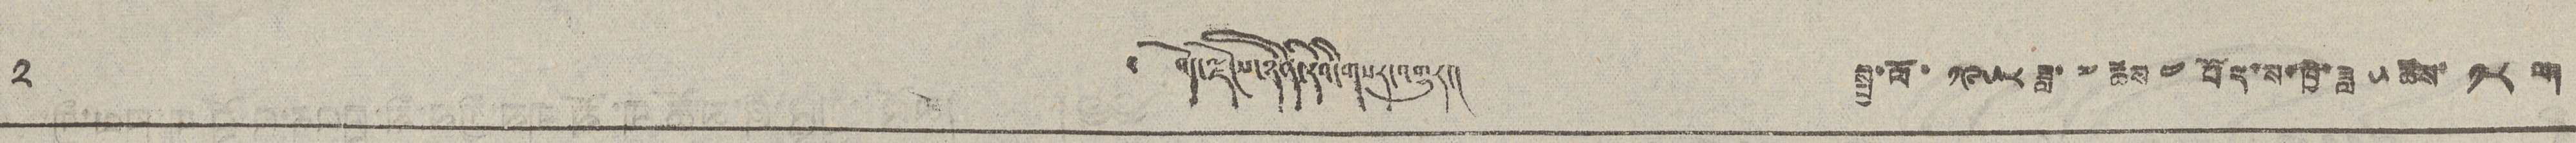༢ ༄ བོད་ལྗོངས་ཉིན་རེའི་གསར་འགྱུར། སྤྱི་ལོ་ ༡༩༥༨ ཟླ་ ༧ ཚེས ༤ བོད་ས་ཁྱི་ཟླ ༥ ཚེས་ ༡༨ ལ།
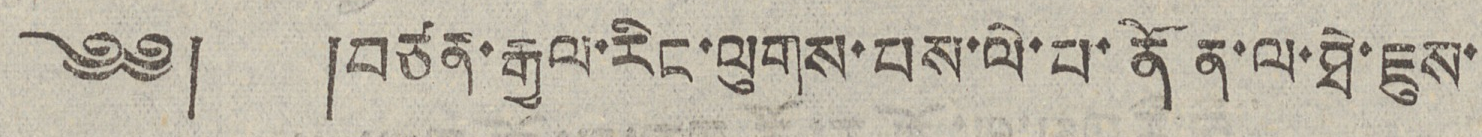༄༅། །བཙན་རྒྱལ་རིང་ལུགས་པས་ལེ་པ་ནོན་ལ་ཐེ་ཇུས་
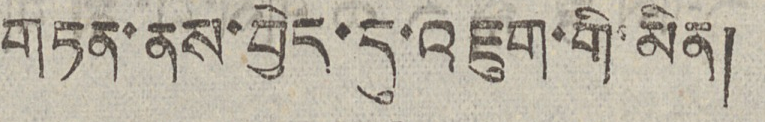གཏན་ནས་བྱེད་དུ་འཇུག་གི་མིན།
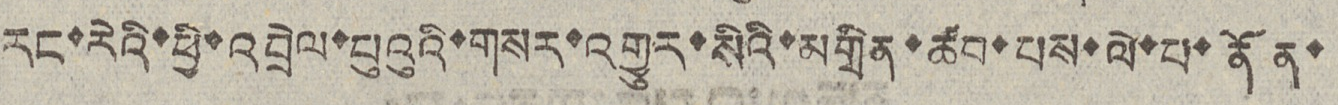རང་རེའི་ཕྱི་འབྲེལ་པུའུའི་གསར་འགྱུར་སིའི་མགྲིན་ཚབ་པས་ལེ་པ་ནོན་
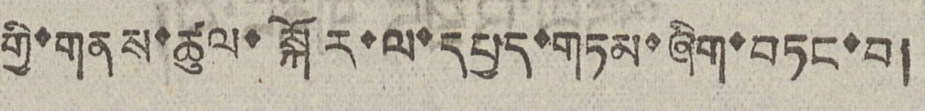གྱི་གནས་ཚུལ་སྐོར་ལ་དཔྱད་གཏམ་ཞིག་བཏང་བ།
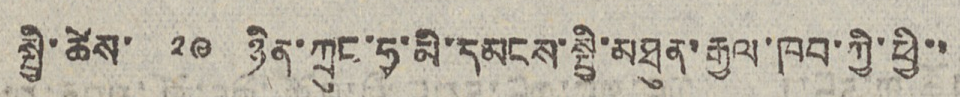སྤྱི་ཚེས་ ༢༩ ཉིན་ཀྲུང་ཧྭ་མི་དམངས་སྤྱི་མཐུན་རྒྱལ་ཁབ་ཀྱི་ཕྱི་་
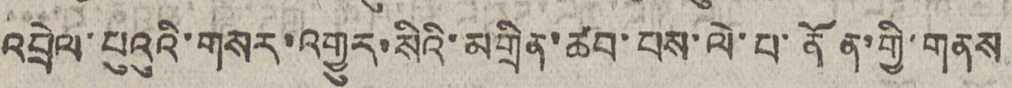འབྲེལ་པུའུའི་གསར་འགྱུར་སིའི་མགྲིན་ཚབ་པས་ལེ་པ་ནོན་གྱི་གནས
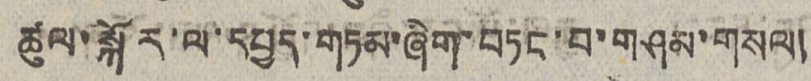ཚུལ་སྐོར་ལ་དཔྱད་གཏམ་ཞིག་བཏང་བ་གཤམ་གསལ།
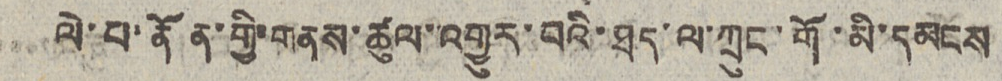ལེ་པ་ནོན་གྱི་གནས་ཚུལ་འགྱུར་བའི་ཐད་ལ་ཀྲུང་གོ་མི་དམངས
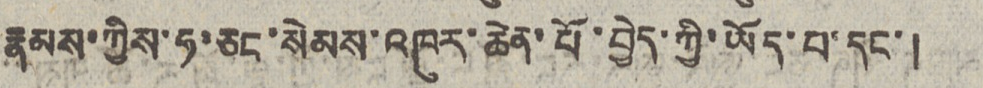རྣམས་ཀྱིས་ཧ་ཅང་སེམས་འཁུར་ཆེན་པོ་བྱེད་ཀྱི་ཡོད་པ་དང་།
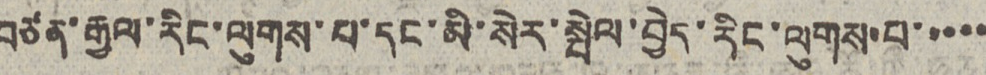བཙན་རྒྱལ་རིང་ལུགས་པ་དང་མི་སེར་སྤེལ་བྱེད་རིང་ལུགས་པ་་་་་
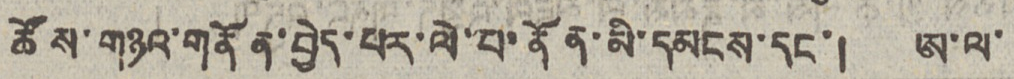ཚོས་གཉའ་གནོན་བྱེད་པར་ལེ་པ་ནོན་མི་དམངས་དང་། ཨ་ལ་
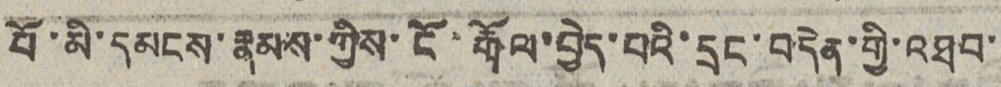པོ་མི་དམངས་རྣམས་ཀྱིས་ངོ་རྒོལ་བྱེད་པའི་དྲང་བདེན་གྱི་འཐབ་
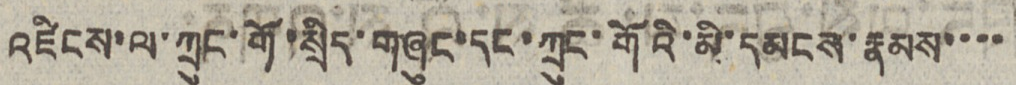འཛིངས་ལ་ཀྲུང་གོ་སྲིད་གཞུང་དང་ཀྲུང་གོའི་མི་དམངས་རྣམས་་་་
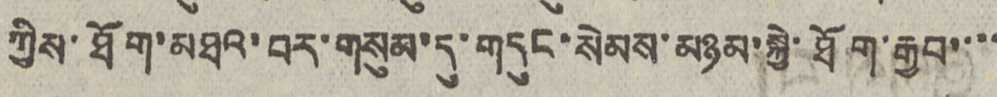ཀྱིས་ཐོག་མཐའ་བར་གསུམ་དུ་གདུང་སེམས་མཉམ་སྐྱེ་ཐོག་རྒྱབ་་་་
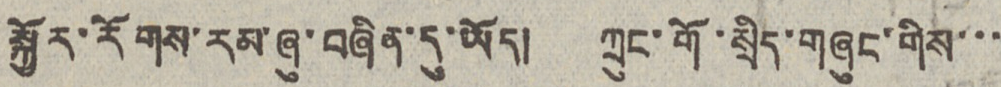སྐྱོར་རོགས་རམ་ཞུ་བཞིན་དུ་ཡོད། ཀྲུང་གོ་སྲིད་གཞུང་གིས་་་
